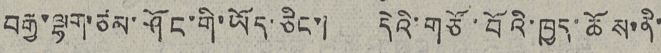བརྒྱ་ལྷག་ཙམ་ཤོང་གི་ཡོད་ཅིང་།  དེའི་གཙོ་བོའི་ཁྱད་ཆོས་ནི་
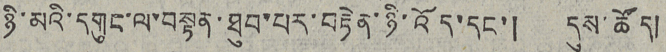ཉི་མའི་དགུང་ལ་བསྟན་ཐུབ་པར་བརྟེན་ཉི་འོད་དང་།  དུས་ཚོད།
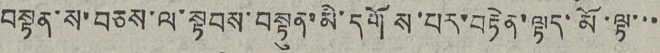བསྟན་ས་བཅས་ལ་སྟབས་བསྟུན་མི་དགོས་པར་བརྟེན་ལྟད་མོ་ལྟ་་་
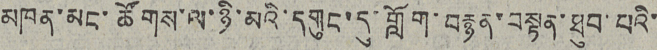མཁན་མང་ཚོགས་ལ་ཉི་མའི་དགུང་དུ་གློག་བརྙན་བསྟན་ཐུབ་པའི་
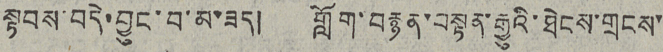སྟབས་བདེ་བྱུང་བ་མ་ཟད།  གློག་བརྙན་བསྟན་རྒྱུའི་ཐེངས་གྲངས་
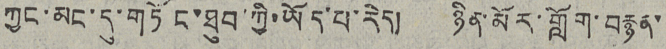ཀྱང་མང་དུ་གཏོང་ཐུབ་ཀྱི་ཡོད་པ་རེད།  ཉིན་མོར་གློག་བརྙན་
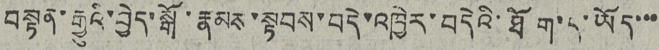བསྟན་རྒྱུའི་བྱེད་སྒོ་རྣམས་སྟབས་བདེ་འཁྱེར་བདེའི་ཐོག་ད་ཡོད་་་
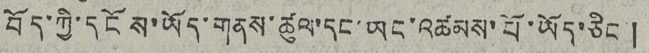བོད་ཀྱི་དངོས་ཡོད་གནས་ཚུལ་དང་ཡང་འཚམས་པོ་ཡོད་ཅིང་།
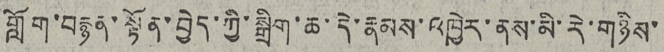གློག་བརྙན་སྟོན་བྱེད་ཀྱི་སྒྲིག་ཆ་དེ་རྣམས་འཁྱེར་ནས་མི་རེ་གཉིས་
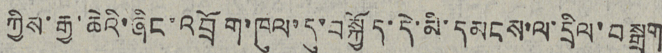ཀྱིས་རྒྱ་ཆེའི་ཞིང་འབྲོག་ཁུལ་དུ་བསྐྱོད་དེ་མི་དམངས་ལ་དྲིལ་བསྒྲག
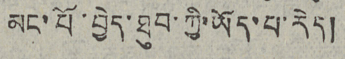མང་པོ་བྱེད་ཐུབ་ཀྱི་ཡོད་པ་རེད།
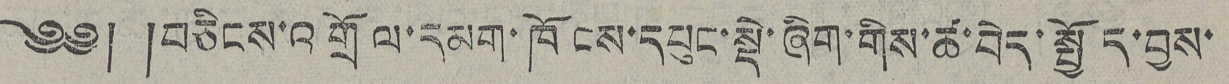༄༅། །བཅིངས་འགྲོལ་དམག་ཁོངས་དཔུང་སྡེ་ཞིག་གིས་ཚ་བེད་སྤྱོད་བྱས་
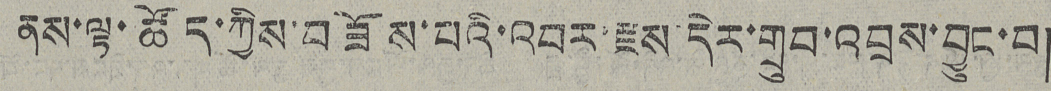ནས་ལྟ་ཚོད་ཀྱིས་བཟོས་པའི་འབར་རྫས་དེར་གྲུབ་འབྲས་བྱུང་བ།
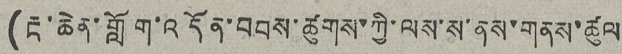(རྔ་ཆེན་གློག་འདོན་བབས་ཚུགས་ཀྱི་ལས་ས་ནས་གནས་ཚུལ
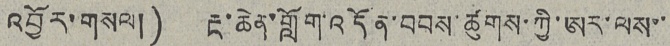འབྱོར་གསལ།)  རྔ་ཆེན་གློག་འདོན་བབས་ཚུགས་ཨར་ལས་་
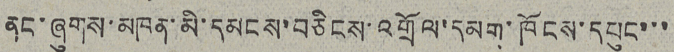ནང་ཞུགས་མཁན་མི་དམངས་བཅིངས་འགྲོལ་དམག་ཁོངས་དཔུང་་་
